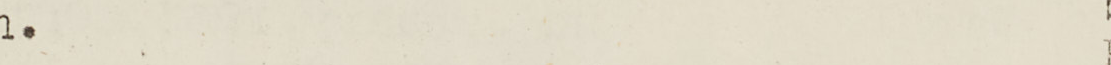d causing a prolonged man
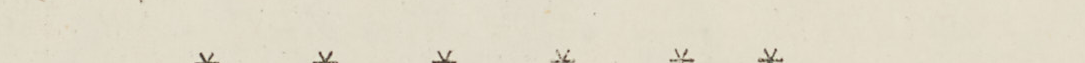made famine; (5) overworking the peo
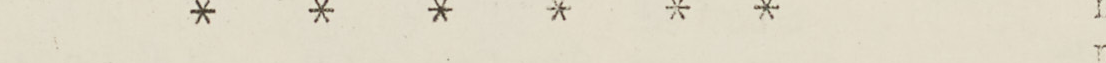in slave labour camps to the point
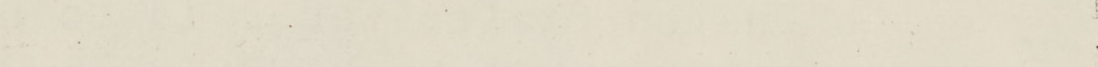of damaging the health of the nation;
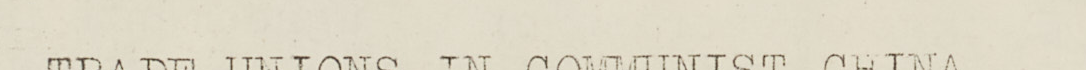6) destroying Chinese culture by in
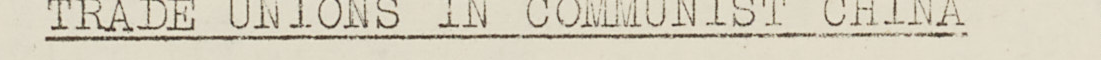troducing the foreign ideology of ....
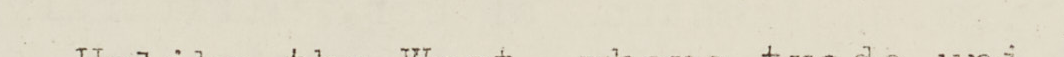Marxist-Leninism; (7) repression of
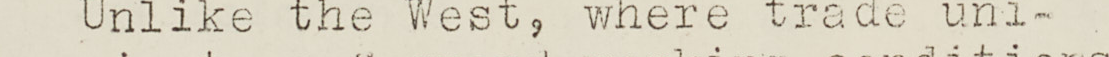Tibetans and other enological minor
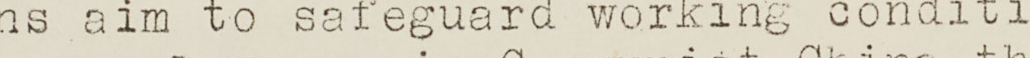ities; (8) breaking up the Chinese
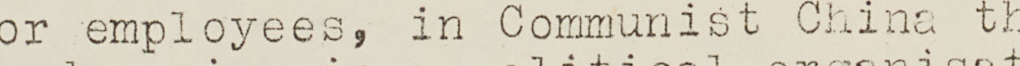amily system; (9) luring overseas
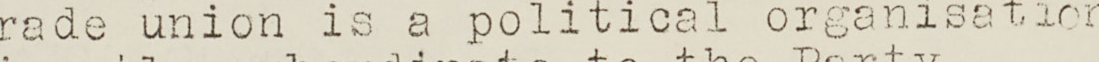Chinese youths to the mainland and ex
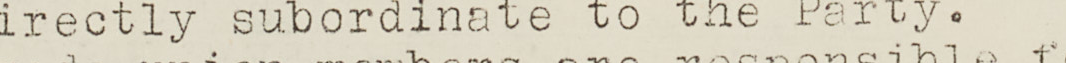torting money from overseas Chinese
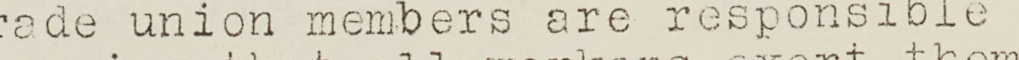(10) pursuing militant course in
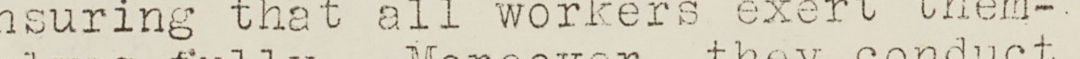international affairs at the risk of
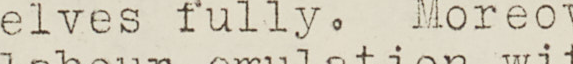global nuclear war.
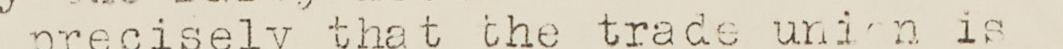taling 600,000 are already billeted
